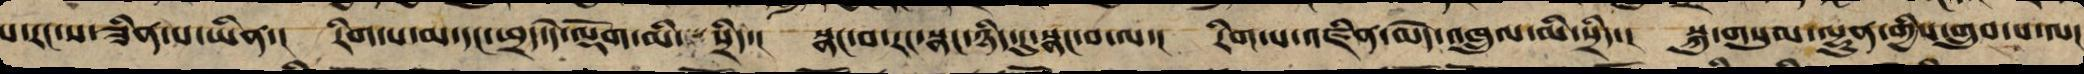པ་རང་ས་ཟིན་པ་ཡིན་། རིག་པ་མ་དང་ཕྲད་དེ་ལྡོག་མི་ སྲིད་། སྣང་བ་རང་སྣང་ཉིད་དུ་སྣང་བ་ལ་། རིག་པ་འཛིན་མེད་འཁྲུལ་མི་སྲིད་། སྐུ་གསུམ་ལྷུན་གྱིས་གྲུབ་པ་ལ།
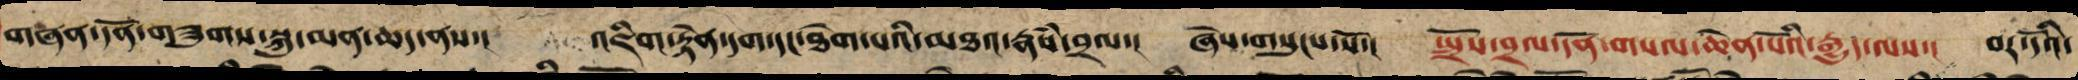གཞན་དོན་གཟུགས་སྐུ་མན་ཆད་ནས་། འཇིག་རྟེན་དག་དང་ཐེག་པའི་མཐའ་རྣྃས་བྲལ་། ཞེས་གསུངས་སོ་། སྤྲོས་བྲལ་དོན་གསལ་ཆེན་པོའི་རྒྱུད་ལས་། བར་དོའི་
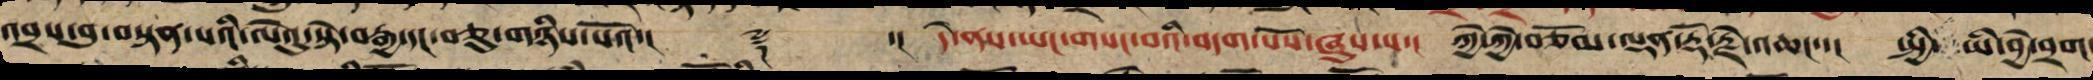འབྲས་བུ་བསྟན་པའི་ལེའུ་སྟེ་བརྒྱ་དང་བཅུ་གཉིས་པའོ་། ༈ ་། དེ་ནས་ཡང་གསང་བའི་བདག་པོས་ཞུས་པ་། ཀྱེ་ཀྱེ་བཅོམ་ལྡན་རྡོ་རྗེ་འཆང་་། སྤྱི་ ཡི་བྱེ་བྲག་
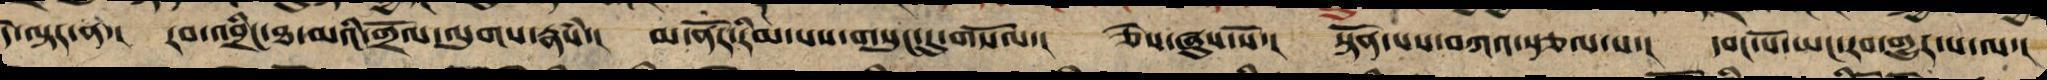དེ་ལྟར་ན་། རབ་འབྲིང་ཐ་མའི་གྲོལ་ལུགས་རྣཾས་། མ་ནོར་རིམ་པས་གསུང་དུ་གསོལ་། ཅེས་ཞུས་སོ་། སྟོན་པས་བཀའ་སྩལ་པ་། དབང་པོ་ཡང་རབ་གྱུར་པ་ལ་།
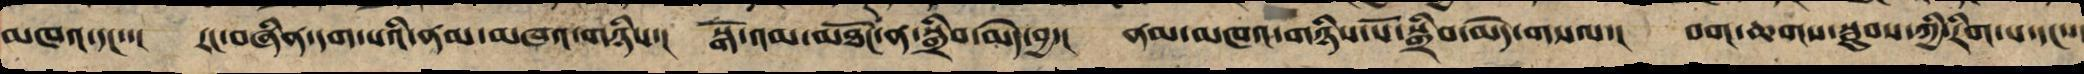མཁའ་དང་་། རང་བཞིན་དག་པའི་ནམ་མཁའ་གཉིས་། སྒོ་འམ་མཐོང་ན་སྒྲིབ་མེད་བྱ་། ནམ་མཁའ་གཉིས་པོ་སྒྲིབ་མེད་གསལ་། བག་ཆགས་སྦུབས་ཀྱི་རིག་པ་དང་་།
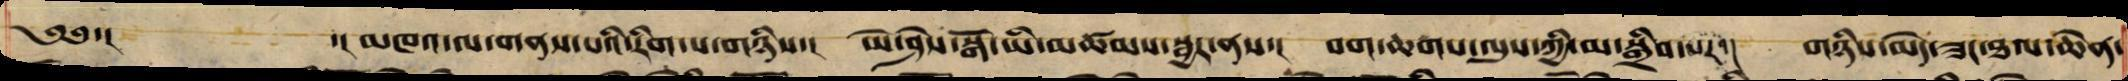༄༅་། ་། མཁའ་ལ་གནས་པའི་རིག་པ་གཉིས་། ཡེ་ཤེས་སྒོ་ཡི་མཚམས་སྦྱར་ནས་། བག་ཆགས་ལུས་ཀྱི་མ་སྒྲིབ་པར་། གཉིས་མེད་ཟང་ཐལ་ཆེན་
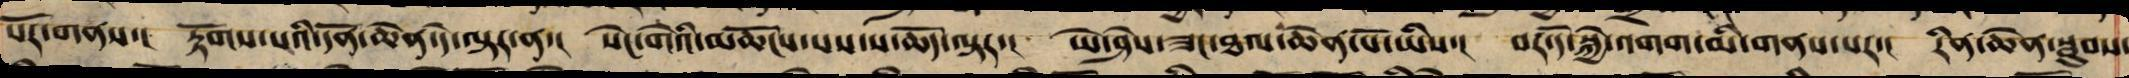པོར་གནས་། རྟོགས་པའི་དོན་ཆེན་དེ་ལྟར་ན་། སེང་གེའི་མཆོངས་པས་ས་ཆོད་ལྟར་། ཡེ་ཤེས་ཟང་ཐལ་ཆེན་པོ་ཡིས་། བར་དོ་སྐྱེ་འགགས་མི་གནས་པར་། རིན་ཆེན་སྦུབས་
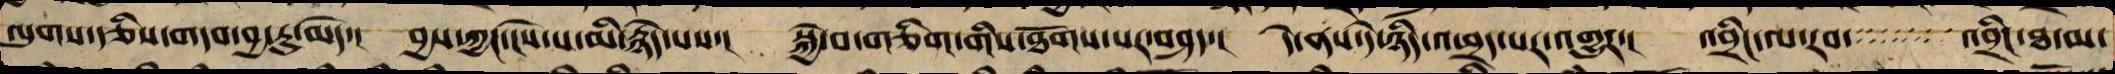ལུགས་རྩིས་གདབ་བྱ་རུ་མེད་། བྱས་ཀྱང་ངེས་པ་མི་རྙེད་པས་། སྐྱེ་བ་གཅིག་གིས་ཐོགས་པར་བཤད་། དེ་ནས་དེ་ཉིད་འཕྲད་པར་འགྱུར་། འབྲིང་ལ་རབ་་་་་་་་འབྲིང་ཐ་མ་
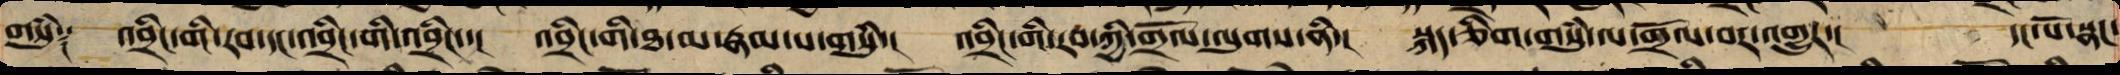གསུཾ༑ འབྲིང་གི་རབ་དང་འབྲིང་གི་འབྲིང་་། འབྲིང་གི་ཐ་མ་རྣམ་པ་གསུཾ་། འབྲིང་གི་རབ་ཀྱི་གྲོལ་ལུགས་ནི་། སྐད་ཅིག་གསུཾ་ལ་གྲོལ་བར་འགྱུར་། དང་པོ་སྣང་
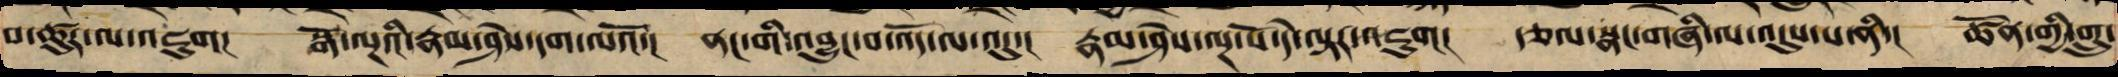བ་ཚུར་ལ་འཇུག། སྒོ་ལྔའི་རྣམ་ཤེས་དག་ལའོ་། ནང་གི་འབྱུང་བ་འོད་ལ་འདུ་། རྣམ་ཤེས་ལྔ་པོ་དེ་ལྟར་འཇུག། རྩལ་སྣང་གཞི་ལ་འདུས་པ་ནི་། ཚོན་གྱི་གྲུ་
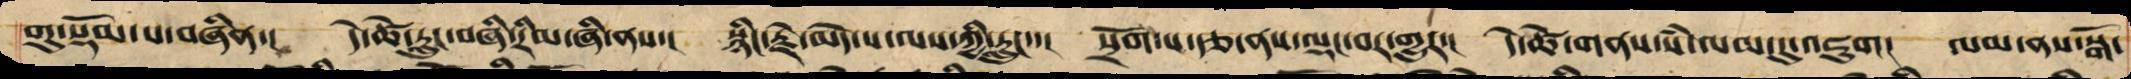གུ་སྡོམ་པ་བཞིན་། དེ་ཚེ་རླུང་བཞི་རིམ་ཞི་ནས་། སྙིང་རྗེ་མེད་པ་ལས་ཀྱི་རླུང་་། སྲོག་པ་རྩ་ནས་ལྡང་བར་འགྱུར་། དེ་ཚེ་གནས་སཾ་ལམ་དུ་འཇུག། ལམ་ནས་སྒོ་
